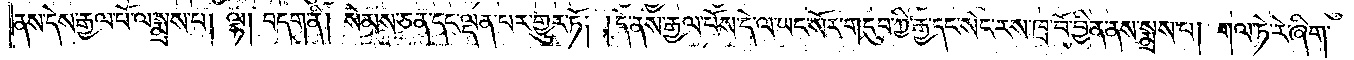ནས་དེས་རྒྱལ་པོ་ལ་སྨྲས་པ། ལྷ། བདག་ནི། སེམས་ཅན་དང་ལྡན་པར་གྱུར་ཏོ། །དེ་ནས་རྒྱལ་པོས་དེ་ལ་ཡང་སོར་གདུབ་ཀྱི་རྒྱ་དང་སེང་རས་ཁྲ་བོ་བྱིན་ནས་སྨྲས་པ། གལ་ཏེ་རེ་ཞིག་
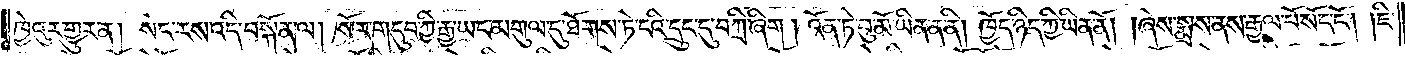ཁྱེའུར་གྱུར་ན། སེང་རས་འདི་བསྐོན་ལ། སོར་གདུབ་ཀྱི་རྒྱ་ཡང་མགུལ་དུ་ཐོགས་ཏེ་ངའི་དྲུང་དུ་བཀྲི་ཞིག །འོན་ཏེ་བུ་མོ་ཡིན་ན་ནི། ཁྱོད་ཉིད་ཀྱི་ཡིན་ནོ། ཞེས་སྨྲས་ནས་རྒྱལ་པོ་སོང་ངོ༌། །ཇི་
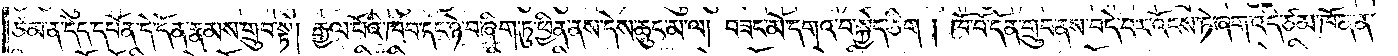ཙམ་ན་དེད་དཔོན་དེ་དོན་རྣམས་གྲུབ་སྟེ། རྒྱལ་པོའི་ཁབ་དང་ཉེ་བ་ཞིག་ཏུ་ཕྱིན་ནས་དེས་ཆུང་མ་ལ། བཟང་མོ་དགའ་བ་སྐྱེད་ཅིག །ཁོ་བོ་དོན་གྲུབ་ནས་བདེ་བར་འོངས་ཏེ་ཞག་འདི་ཙམ་ཁོ་ན་ན་
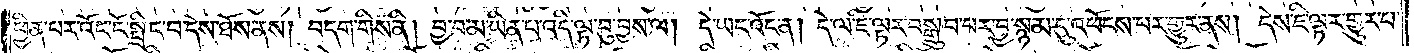ཕྱིན་པར་འོང་ངོ་སྤྲིང་བ་དེས་ཐོས་ནས། བདག་གིས་ནི། བྱ་བ་མ་ཡིན་པ་འདི་ལྟ་བུ་བྱས་ལ། དེ་ཡང་འོང་ན། དེ་ལ་ཇི་ལྟར་བསྒྲུབ་པར་བྱ་སྙམ་དུ་འཕོངས་པར་གྱུར་ནས། དེས་ཇི་ལྟར་གྱུར་པ་
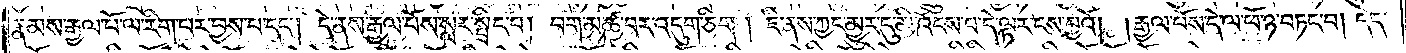རྣམས་རྒྱལ་པོ་ལ་རིག་པར་བྱས་པ་དང༌། དེ་ནས་རྒྱལ་པོས་སླར་སྤྲིང་པ། བག་མ་ཚ་བར་འདུག་ཅིག །ཇི་ནས་ཀྱང་མྱུར་དུ་མི་འོང་པ་དེ་ལྟར་ངས་བྱའོ། །རྒྱལ་པོས་དེ་ལ་ཕོ་ཉ་བཏང་བ། དེད་
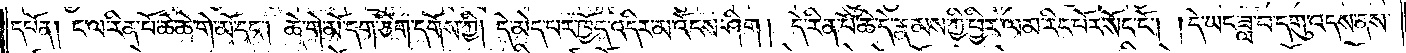དཔོན། ང་ལ་རིན་པོ་ཆེ་ཆེ་གེ་མོ་དང༌། ཆེ་གེ་མོ་དག་ཅིག་དགོས་ཀྱི། དེ་མེད་པར་ཁྱོད་འདིར་མ་འོངས་ཤིག །དེ་རིན་པོ་ཆེ་དེ་རྣམས་ཀྱི་ཕྱིར་ལམ་རིང་པོར་སོང་ངོ༌། །དེ་ཡང་ཟླ་བ་དགུ་འདས་ནས་
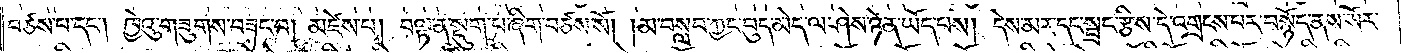བཙས་པ་དང༌། ཁྱེའུ་གཟུགས་བཟང་བ། མཛེས་པ། བལྟ་ན་སྡུག་པ་ཞིག་བཙས་སོ། །མ་བསླབ་ཀྱང་བུད་མེད་ལ་ཤེས་ཉེན་ཡོད་པས། དེས་མར་དང་སྦྲང་རྩིས་དེ་འགྲངས་པར་བསྙོད་ནས་སོར་
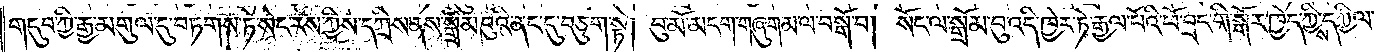གདུབ་ཀྱི་རྒྱ་མགུལ་དུ་བཏགས་ཏེ་སེང་རས་ཀྱིས་དཀྲིས་ནས་སྒྲོམ་བུའི་ནང་དུ་བཅུག་སྟེ། བུ་མོ་མངག་གཞུག་མ་ལ་བསྒོ་བ། སོང་ལ་སྒྲོམ་བུ་འདི་ཁྱེར་ཏེ་རྒྱལ་པོའི་ཕོ་བྲང་གི་སྒོར་ཁྱེད་ཀྱིས་དཀྱིལ་
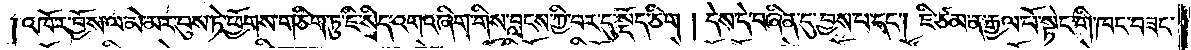།འཁོར་བྱོས་ལ་མེ་མར་བུས་ཏེ་ཕྱོགས་གཅིག་ཏུ་ཇི་སྲིད་འགའ་ཞིག་གིས་བླངས་ཀྱི་བར་དུ་སྡོད་ཅིག །དེས་དེ་བཞིན་དུ་བྱས་པ་དང༌། ཇི་ཙམ་ན་རྒྱལ་པོ་སྟེང་གི་ཁང་བཟང་
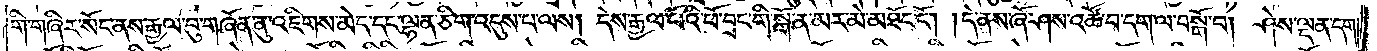གི་གཞིར་སོང་ནས་རྒྱལ་བུ་གཞོན་ནུ་འཇིགས་མེད་དང་ལྷན་ཅིག་འདུས་པ་ལས། དེས་རྒྱལ་པོའི་ཕོ་བྲང་གི་སྒོ་ན་མར་མེ་མཐོང་ངོ༌། །དེ་ནས་ཞོ་ཤས་འཚོ་བ་དག་ལ་བསྒོ་བ། །ཤེས་ལྡན་དག་
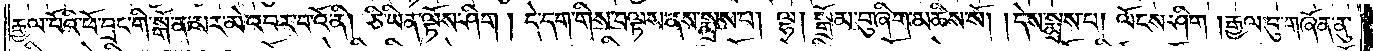རྒྱལ་པོའི་ཕོ་བྲང་གི་སྒོ་ན་མར་མེ་འབར་བ་འོ་ནི། ཅི་ཡིན་ལྟོས་ཤིག །དེ་དག་གིས་བལྟས་ནས་སྨྲས་པ། ལྷ། སྒྲོམ་བུ་ཞིག་མཆིས་སོ། །དེས་སྨྲས་པ། ལོངས་ཤིག །རྒྱལ་བུ་གཞོན་ནུ་
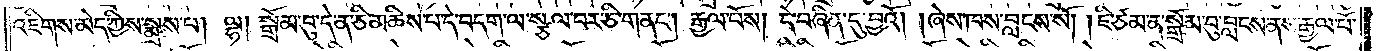འཇིགས་མེད་ཀྱིས་སྨྲས་པ། ལྷ། སྒྲོམ་བུ་དེ་ན་ཅི་མཆིས་པ་དེ་བདག་ལ་སྩལ་པར་ཅི་གནང༌། རྒྱལ་པོས། དེ་བཞིན་དུ་བྱའོ། །ཞེས་ཁས་བླངས་སོ། །ཇི་ཙམ་ན་སྒྲོམ་བུ་བླངས་ནས་རྒྱལ་པོ་
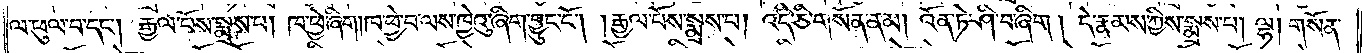ལ་ཕུལ་བ་དང༌། རྒྱལ་པོས་སྨྲས་པ། ཁ་ཕྱེ་ཞིག། ཁ་ཕྱེ་བ་ལས་ཁྱེའུ་ཞིག་བྱུང་ངོ༌། །རྒྱལ་པོས་སྨྲས་པ། འདི་ཅི་གསོན་ནམ། འོན་ཏེ་ཤི་བ་ཞིག །དེ་རྣམས་ཀྱིས་སྨྲས་པ། ལྷ། གསོན་
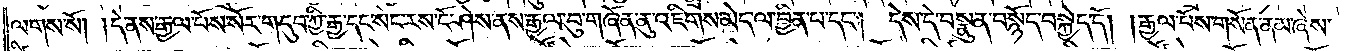ལགས་སོ། །དེ་ནས་རྒྱལ་པོས་སོར་གདུབ་ཀྱི་རྒྱ་དང་སེང་རས་ངོ་ཤེས་ནས་རྒྱལ་བུ་གཞོན་ནུ་འཇིགས་མེད་ལ་བྱིན་པ་དང༌། དེས་དེ་བསྣུན་བསྙོད་བསྐྱེད་དོ། རྒྱལ་པོས་གསོན་ནམ་ཞེས་
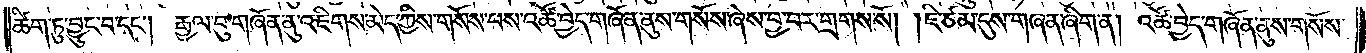ཚིག་ཏུ་བྱུང་བ་དང༌། རྒྱལ་བུ་གཞོན་ནུ་འཇིགས་མེད་ཀྱིས་གསོས་པས་འཚོ་བྱེད་གཞོན་ནུས་གསོས་ཞེས་བྱ་བར་གྲགས་སོ། །ཇི་ཙམ་དུས་གཞན་ཞིག་ན། འཚོ་བྱེད་གཞོན་ནུས་གསོས་
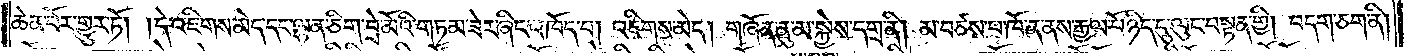ཆེན་པོར་གྱུར་ཏོ། །དེ་འཇིགས་མེད་དང་ལྷན་ཅིག་བྲེ་མོའི་གཏམ་ཟེར་ཞིང་འཁོད་པ། འཇིགས་མེད། གཞོན་ནུ་མ་སྐྱེས་དགྲ་ནི། མ་བཙས་པ་ཁོ་ན་ནས་རྒྱལ་པོ་ཉིད་དུ་ལུང་བསྟན་གྱི། བདག་ཅག་ནི།
